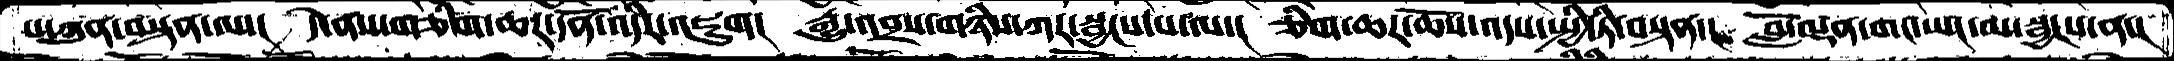པ་ཀུན་བསྟན་ལ་།  དེ་ནས་གཅིག་ཆར་དོན་འདིར་འཇུག་།  རྒྱུ་འབྲས་གཉིས་ཀར་སྦྱངས་པ་ལ་།  ཅིག་ཆར་ཆོས་འདས་སྤྱི་ཏི་བསྟན་།   བློ་ལྡན་གང་ཡང་མ་སྦྱངས་ན་།
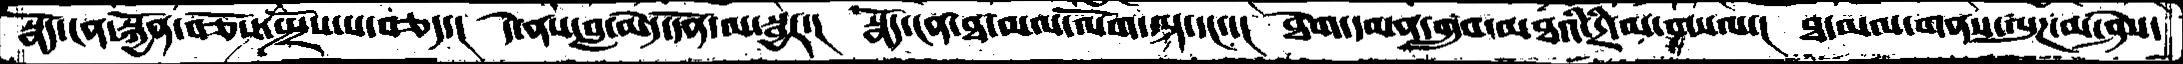སྣོད་ངན་སྐྱོན་བཅོས་སྤྲོས་པ་བཅད་།  དེ་ནས་བླ་མེད་དོན་ལ་སྦྱར་།  སྣོད་ངན་ཐ་མལ་ལོག་ལྟ་དང་་།  ཐེག་དམན་གྲུབ་མཐའི་དྲི་མ་གསལ་།  ཐ་མལ་གནས་ལུཌ་མ་ཤེས་
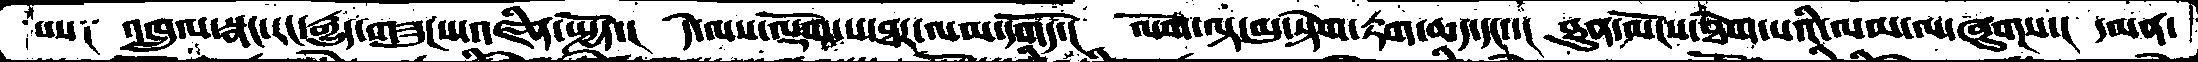པས༑  འཁྲུལ་སྣང་རང་རྒྱུད་གཟུངས་འཛིན་སྤྱོད་།  དེ་ལས་ལྡོག་པ་ཐར་ལམ་དགོད་།  ལོག་ལྟ་མུ་སྟེག་རྟག་ཆད་དང་་།   ཐུན་མོངས་ཐེག་པའི་ལམ་ལ་ཞུགས་།  དམན་
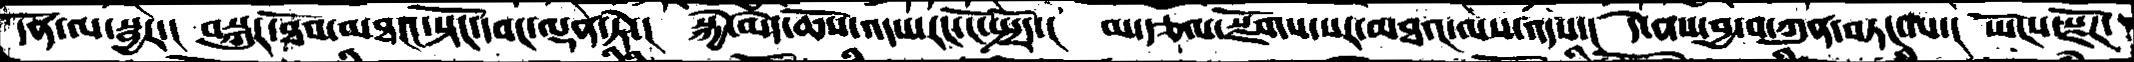དོན་ལ་སྦྱར་།  བསྐུར་ཐོབ་མཐའ་སྟོང་དབང་ལྡན་ཏེ་།  སྐྱེ་མེད་ཆོས་འདས་རང་ངོ་སྤྲོད་།  མ་བརྩལ་སྫོགས་པར་མཐའ་ལས་འདས་།  དེ་ནས་བྱ་བ་ཀུན་བཏང་ལ་།  ཡོངས་སྫོཌ་
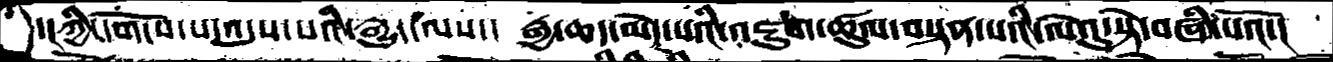་།ཀྱི་དགོངས་པ་འདུས་པའི་རྒྱུད་ལས་།  རྒྱ་ཆད་མེད་པའི་འཇུག་ཚུལ་བསྟན་པའི་ལེའུ་སྟེ་བཞི་པའོ་།
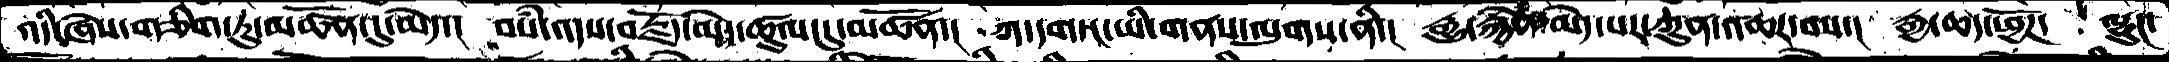འདི་ཞེས་གཅིག་ཏུ་མཚོན་དུ་མེད་།  བསཾ་འདས་བརྗོད་མེད་ཚུལ་དུ་མཚོན་།  ཀ་དག་ང་ཡི་གནས་ལུགས་ནི་།  རྒྱུ་རྐྱེན་མེད་པར་ཀུན་འཆར་བས་།  རྒྱ་ཆད་ཕྱོཌ་  ལྷུང་
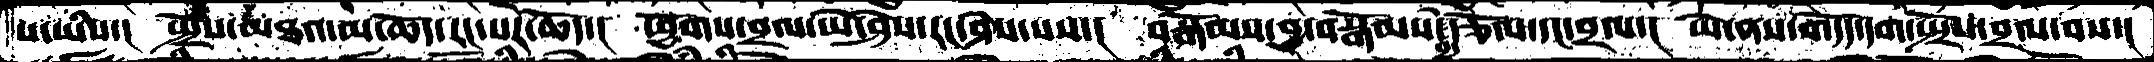པ་ཡིས་། སྤྲོས་མཐའ་མ་ཆོད་རང་སར་ཆོད་། ཕྱོགས་བྲལ་ཡེ་ཤེས་རང་ཤེས་པས་། བསྒོམས་བྱ་བསྒོམས་བྱེད་རྩོལ་དང་བྲལ་། ཡེ་ནས་གདོད་དག་སྤྲོས་བྲལ་བས་།
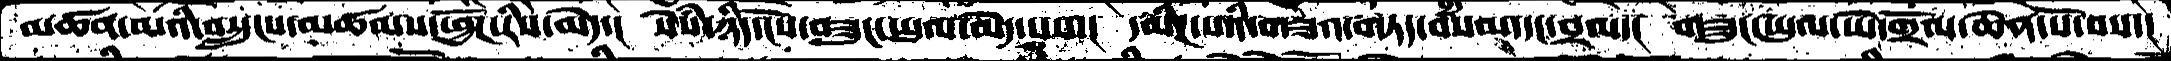མཚན་མའི་བསྲུངས་མཚམས་ཕྱོཌ་རིས་མེད་།  སེཾས་ཉིད་དངོས་བཟུང་ཡུལ་མེད་པས་།   དམིཌ་པའི་གཟའ་གཏད་བསམ་དང་བྲལ་།  གཟུང་ཡུལ་ཡེ་གྲོལ་ཆེན་པོ་བས་།
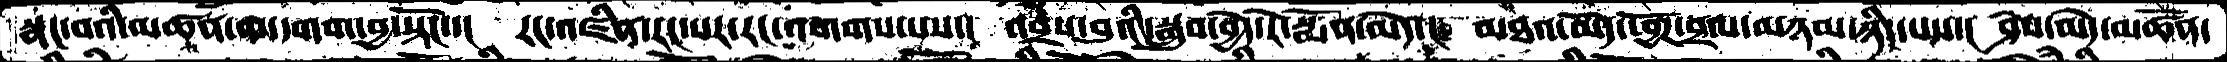སྣང་བའི་མཚན་མ་དགག་བྱ་སྟོང་་།  རང་འཛིན་རང་སར་རང་འགགས་པས་།  འབྲས་བུའི་སྒྲུབ་བྱེད་རེ་སྨོན་མེད་།  མཐའ་མེད་ཕྱོཌ་བྲལ་མཉམ་ཉིད་པས་།  ཤེས་མེད་མཚོན་
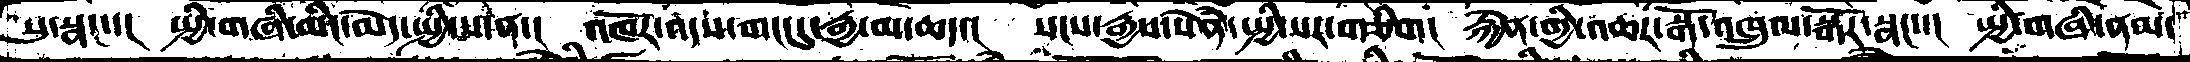སུ་སྣང་་།  སྤྱི་གཞི་མིང་མེད་སྤྱི་ས་ན་།  འཁོར་འདས་གང་དུ་རྒྱ་མ་ཅད་།  སངས་རྒྱས་སེཾན་སྤྱི་སར་གཅིག།  རྐྱེན་གྱི་འཆར་སྒོ་འཁྲུལ་སྒོར་སྣང་་།  སྤྱི་གཞི་ནམ་
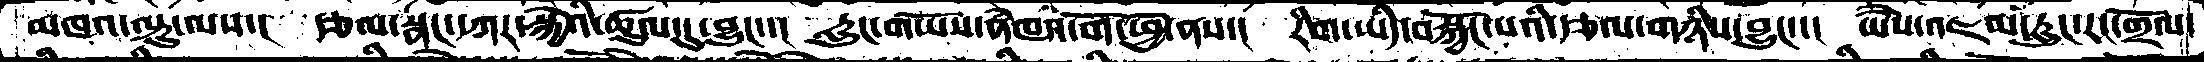མཁའ་ལྟུ་ལས་།  རྩལ་སྣང་དཀར་སྐྱེའི་ཚུལ་དུ་བྱུང་་།  རླུང་གཡོས་ནཾཁའ་གོང་ཕྱེ་ནས་།  རིག་ཡིད་བསྐྱོང་པའི་རྩལ་གཉིས་བྱུང་་།  ཡཻས་འཇམ་རླུང་རང་གྲོལ་
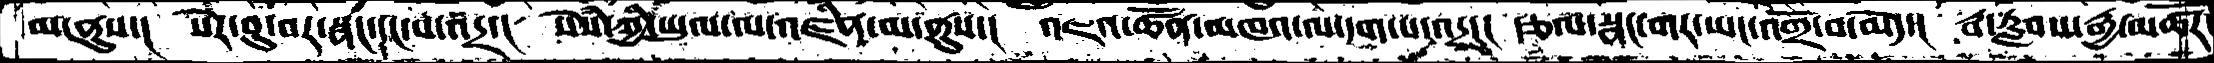མ་ནུས་།  སེར་བུ་བར་སྣང་དང་པ་འདྲ་།  སེསཾ་ཀྱི་ཡུལ་ལ་འཛིན་མ་ནུས་།  འཇའ་ཚོན་མཁའ་ལ་དག་པ་འདྲ།།།  རྩལ་སྣང་གར་ཡང་འགྲོ་བ་མེད་།  རྦ་རླབས་རྒྱ་མཚོར་
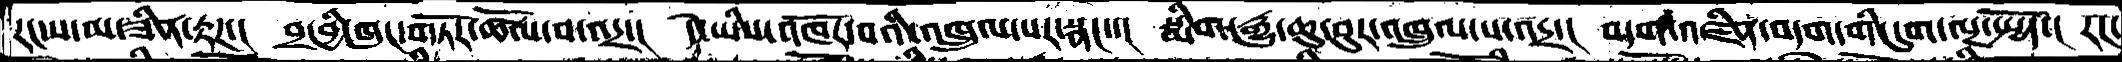རང་ས་མ་ཟིན་རྟཌ་།  བྲ་བྱི་ཁུང་གཏོར་ཚོལ་བ་འདྲ་།  དེ་ཡིས་འཁོར་བའི་འཁྲུལ་པར་སྣང་་།  སྨིག་རྒྱུ་ཆུ་བུར་འཁྲུལ་པ་འདྲ་།  བདག་འཛིན་བདག་གི་དུག་ལྔ་སྤྱོད་།  རང་
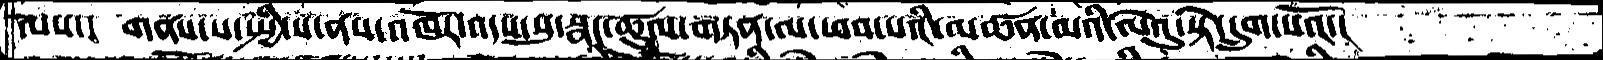ལས་།  གནས་པ་སྤྱི་ས་ནས་འཁོར་འདས་སུ་སྣང་ཚུལ་གཏན་ལ་ཕབ་པའི་མཚན་མའི་ལེའུ་སྟེ་དྲུག་པའོ་།
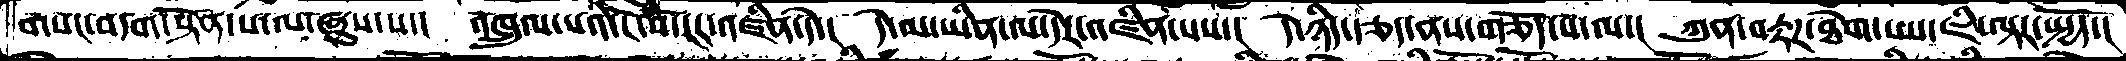གསང་བདག་སྟོན་པ་ལ་ཞུས་པ་།  འཁྲུལ་པའི་ངོ་བོ་ངར་འཛིན་དེ་།  དེ་མ་ཡིན་ལ་དེར་འཛིན་པས་།  དེ་ཉིད་རྩད་ནས་གཅོད་པ་ལ་།  ཀུན་བརྟཌ་ཐེག་པས་ཇི་ལྟར་སྤྱོད་།
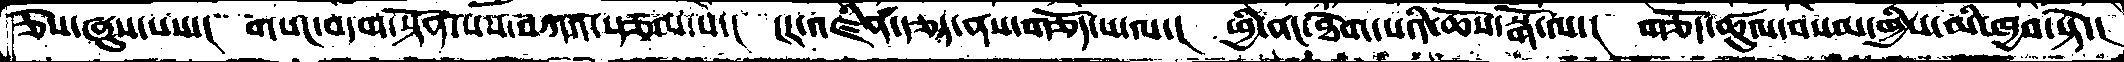ཅེས་ཞུས་པས་།  གསང་བདག་སྟོན་པས་བཀའ་སྩལ་པ་།  ངར་འཛིན་རྩད་ནས་གཅོད་པ་ལ་།  ཕྱི་ནང་ཐེག་པའི་ཆོས་སྒོ་ལ་།  གཅོད་ཚུལ་བསམ་གྱིས་མི་ཁྱབ་སྟེ་།
